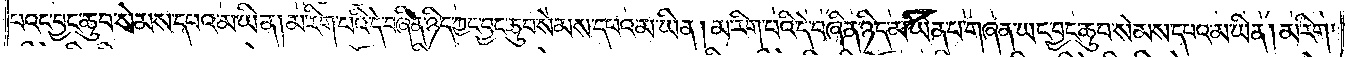པའང་བྱང་ཆུབ་སེམས་དཔའ་མ་ཡིན། མ་རིག་པའི་དེ་བཞིན་ཉིད་ཀྱང་བྱང་ཆུབ་སེམས་དཔའ་མ་ཡིན། མ་རིག་པའི་དེ་བཞིན་ཉིད་མ་ཡིན་པ་གཞན་ཡང་བྱང་ཆུབ་སེམས་དཔའ་མ་ཡིན། མ་རིག་
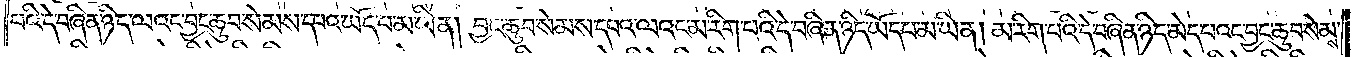པའི་དེ་བཞིན་ཉིད་ལའང་བྱང་ཆུབ་སེམས་དཔའ་ཡོད་པ་མ་ཡིན། བྱང་ཆུབ་སེམས་དཔའ་ལའང་མ་རིག་པའི་དེ་བཞིན་ཉིད་ཡོད་པ་མ་ཡིན། མ་རིག་པའི་དེ་བཞིན་ཉིད་མེད་པའང་བྱང་ཆུབ་སེམས་
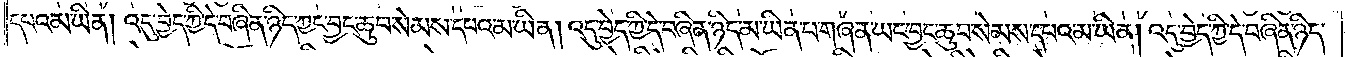དཔའ་མ་ཡིན། འདུ་བྱེད་ཀྱི་དེ་བཞིན་ཉིད་ཀྱང་བྱང་ཆུབ་སེམས་དཔའ་མ་ཡིན། འདུ་བྱེད་ཀྱི་དེ་བཞིན་ཉིད་མ་ཡིན་པ་གཞན་ཡང་བྱང་ཆུབ་སེམས་དཔའ་མ་ཡིན། འདུ་བྱེད་ཀྱི་དེ་བཞིན་ཉིད་
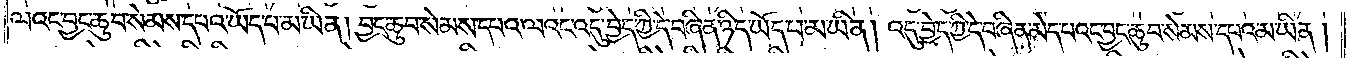ལའང་བྱང་ཆུབ་སེམས་དཔའ་ཡོད་པ་མ་ཡིན། བྱང་ཆུབ་སེམས་དཔའ་ལའང་འདུ་བྱེད་ཀྱི་དེ་བཞིན་ཉིད་ཡོད་པ་མ་ཡིན། འདུ་བྱེད་ཀྱི་དེ་བཞིན་མེད་པའང་བྱང་ཆུབ་སེམས་དཔའ་མ་ཡིན།
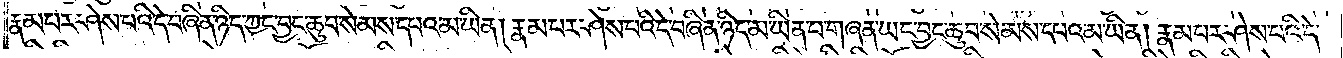རྣམ་པར་ཤེས་པའི་དེ་བཞིན་ཉིད་ཀྱང་བྱང་ཆུབ་སེམས་དཔའ་མ་ཡིན། རྣམ་པར་ཤེས་པའི་དེ་བཞིན་ཉིད་མ་ཡིན་པ་གཞན་ཡང་བྱང་ཆུབ་སེམས་དཔའ་མ་ཡིན། རྣམ་པར་ཤེས་པའི་དེ་
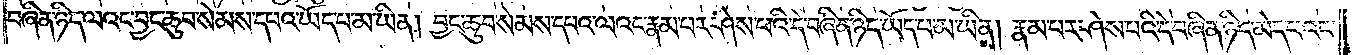བཞིན་ཉིད་ལའང་བྱང་ཆུབ་སེམས་དཔའ་ཡོད་པ་མ་ཡིན། བྱང་ཆུབ་སེམས་དཔའ་ལའང་རྣམ་པར་ཤེས་པའི་དེ་བཞིན་ཉིད་ཡོད་པ་མ་ཡིན། རྣམ་པར་ཤེས་པའི་དེ་བཞིན་ཉིད་མེད་པའང་
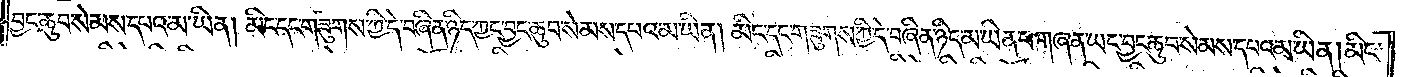བྱང་ཆུབ་སེམས་དཔའ་མ་ཡིན། མིང་དང་གཟུགས་ཀྱི་དེ་བཞིན་ཉིད་ཀྱང་བྱང་ཆུབ་སེམས་དཔའ་མ་ཡིན། མིང་དང་གཟུགས་ཀྱི་དེ་བཞིན་ཉིད་མ་ཡིན་པ་གཞན་ཡང་བྱང་ཆུབ་སེམས་དཔའ་མ་ཡིན། མིང་
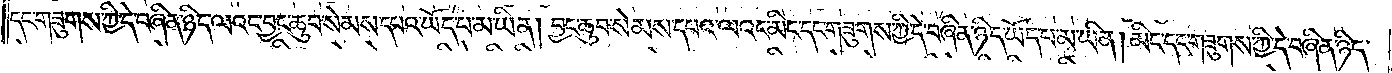དང་གཟུགས་ཀྱི་དེ་བཞིན་ཉིད་ལའང་བྱང་ཆུབ་སེམས་དཔའ་ཡོད་པ་མ་ཡིན། བྱང་ཆུབ་སེམས་དཔའ་ལའང་མིང་དང་གཟུགས་ཀྱི་དེ་བཞིན་ཉིད་ཡོད་པ་མ་ཡིན། མིང་དང་གཟུགས་ཀྱི་དེ་བཞིན་ཉིད་
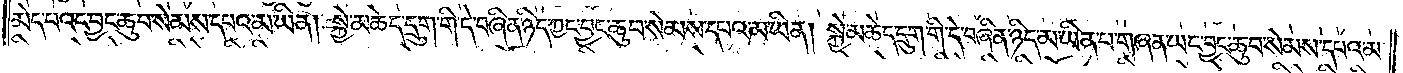མེད་པའང་བྱང་ཆུབ་སེམས་དཔའ་མ་ཡིན། སྐྱེ་མཆེད་དྲུག་གི་དེ་བཞིན་ཉིད་ཀྱང་བྱང་ཆུབ་སེམས་དཔའ་མ་ཡིན། སྐྱེ་མཆེད་དྲུག་གི་དེ་བཞིན་ཉིད་མ་ཡིན་པ་གཞན་ཡང་བྱང་ཆུབ་སེམས་དཔའ་མ་
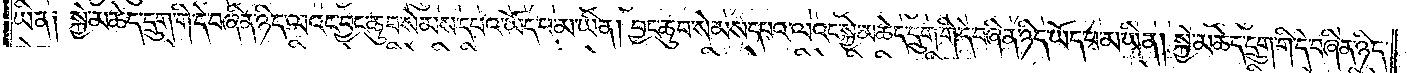ཡིན༑ སྐྱེ་མཆེད་དྲུག་གི་དེ་བཞིན་ཉིད་ལའང་བྱང་ཆུབ་སེམས་དཔའ་ཡོད་པ་མ་ཡིན། བྱང་ཆུབ་སེམས་དཔའ་ལའང་སྐྱེ་མཆེད་དྲུག་གི་དེ་བཞིན་ཉིད་ཡོད་པ་མ་ཡིན། སྐྱེ་མཆེད་དྲུག་གི་དེ་བཞིན་ཉིད་
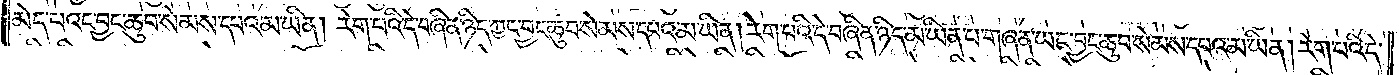མེད་པའང་བྱང་ཆུབ་སེམས་དཔའ་མ་ཡིན། རེག་པའི་དེ་བཞིན་ཉིད་ཀྱང་བྱང་ཆུབ་སེམས་དཔའ་མ་ཡིན། རེག་པའི་དེ་བཞིན་ཉིད་མ་ཡིན་པ་གཞན་ཡང་བྱང་ཆུབ་སེམས་དཔའ་མ་ཡིན། རེག་པའི་དེ་
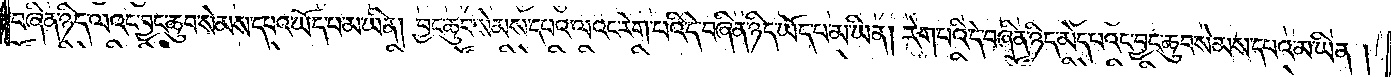བཞིན་ཉིད་ལའང་བྱང་ཆུབ་སེམས་དཔའ་ཡོད་པ་མ་ཡིན། བྱང་ཆུབ་སེམས་དཔའ་ལའང་རེག་པའི་དེ་བཞིན་ཉིད་ཡོད་པ་མ་ཡིན། རེག་པའི་དེ་བཞིན་ཉིད་མེད་པའང་བྱང་ཆུབ་སེམས་དཔའ་མ་ཡིན།
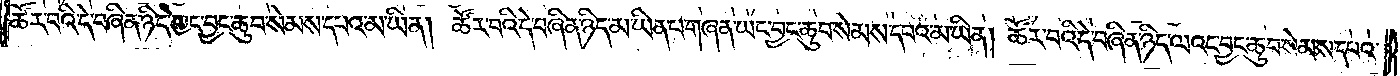ཚོར་བའི་དེ་བཞིན་ཉིད་ཀྱང་བྱང་ཆུབ་སེམས་དཔའ་མ་ཡིན། ཚོར་བའི་དེ་བཞིན་ཉིད་མ་ཡིན་པ་གཞན་ཡང་བྱང་ཆུབ་སེམས་དཔའ་མ་ཡིན། ཚོར་བའི་དེ་བཞིན་ཉིད་ལའང་བྱང་ཆུབ་སེམས་དཔའ་
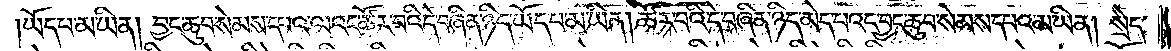ཡོད་པ་མ་ཡིན། བྱང་ཆུབ་སེམས་དཔའ་ལའང་ཚོར་བའི་དེ་བཞིན་ཉིད་ཡོད་པ་མ་ཡིན། ཚོར་བའི་དེ་བཞིན་ཉིད་མེད་པའང་བྱང་ཆུབ་སེམས་དཔའ་མ་ཡིན། སྲེད་
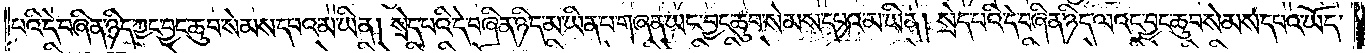པའི་དེ་བཞིན་ཉིད་ཀྱང་བྱང་ཆུབ་སེམས་དཔའ་མ་ཡིན། སྲེད་པའི་དེ་བཞིན་ཉིད་མ་ཡིན་པ་གཞན་ཡང་བྱང་ཆུབ་སེམས་དཔའ་མ་ཡིན། སྲེད་པའི་དེ་བཞིན་ཉིད་ལའང་བྱང་ཆུབ་སེམས་དཔའ་ཡོད་
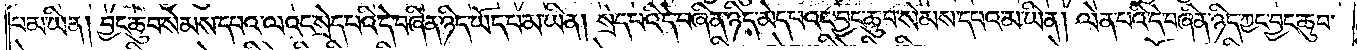པ་མ་ཡིན། བྱང་ཆུབ་སེམས་དཔའ་ལའང་སྲེད་པའི་དེ་བཞིན་ཉིད་ཡོད་པ་མ་ཡིན། སྲེད་པའི་དེ་བཞིན་ཉིད་མེད་པའང་བྱང་ཆུབ་སེམས་དཔའ་མ་ཡིན། ལེན་པའི་དེ་བཞིན་ཉིད་ཀྱང་བྱང་ཆུབ་
